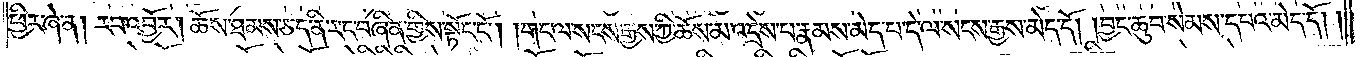ཕྱིར་ཞེ་ན། རབ་འབྱོར། ཆོས་ཐམས་ཅད་ནི་རང་བཞིན་གྱིས་སྟོང་ངོ༌། །གང་ལ་སངས་རྒྱས་ཀྱི་ཆོས་མ་འདྲེས་པ་རྣམས་མེད་པ་དེ་ལ་སངས་རྒྱས་མེད་དོ། །བྱང་ཆུབ་སེམས་དཔའ་མེད་དོ། །
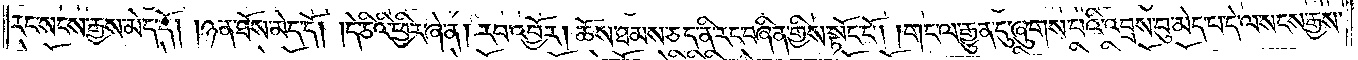རང་སངས་རྒྱས་མེད་དོ། །ཉན་ཐོས་མེད་དོ། །དེ་ཅིའི་ཕྱིར་ཞེ་ན། རབ་འབྱོར། ཆོས་ཐམས་ཅད་ནི་རང་བཞིན་གྱིས་སྟོང་ངོ༌། །གང་ལ་རྒྱུན་དུ་ཞུགས་པའི་འབྲས་བུ་མེད་པ་དེ་ལ་སངས་རྒྱས་
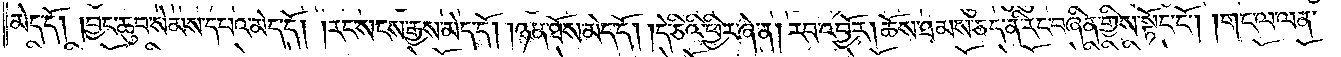མེད་དོ། །བྱང་ཆུབ་སེམས་དཔའ་མེད་དོ། །རང་སངས་རྒྱས་མེད་དོ། །ཉན་ཐོས་མེད་དོ། །དེ་ཅིའི་ཕྱིར་ཞེ་ན། རབ་འབྱོར། ཆོས་ཐམས་ཅད་ནི་རང་བཞིན་གྱིས་སྟོང་ངོ༌། །གང་ལ་ལན་
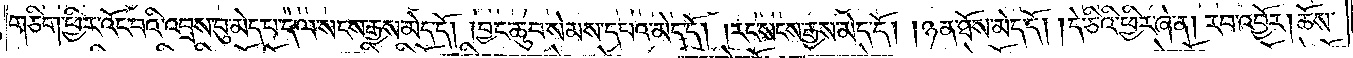གཅིག་ཕྱིར་འོང་བའི་འབྲས་བུ་མེད་པ་དེ་ལ་སངས་རྒྱས་མེད་དོ། །བྱང་ཆུབ་སེམས་དཔའ་མེད་དོ། །རང་སངས་རྒྱས་མེད་དོ། །ཉན་ཐོས་མེད་དོ། །དེ་ཅིའི་ཕྱིར་ཞེ་ན། རབ་འབྱོར། ཆོས་
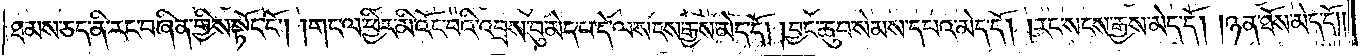ཐམས་ཅད་ནི་རང་བཞིན་གྱིས་སྟོང་ངོ༌། །གང་ལ་ཕྱིར་མི་འོང་བའི་འབྲས་བུ་མེད་པ་དེ་ལ་སངས་རྒྱས་མེད་དོ། །བྱང་ཆུབ་སེམས་དཔའ་མེད་དོ། །རང་སངས་རྒྱས་མེད་དོ། །ཉན་ཐོས་མེད་དོ། །
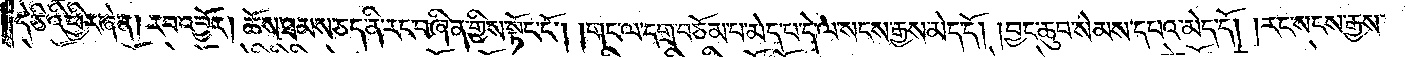དེ་ཅིའི་ཕྱིར་ཞེ་ན། རབ་འབྱོར། ཆོས་ཐམས་ཅད་ནི་རང་བཞིན་གྱིས་སྟོང་ངོ༌། །གང་ལ་དགྲ་བཅོམ་པ་མེད་པ་དེ་ལ་སངས་རྒྱས་མེད་དོ། །བྱང་ཆུབ་སེམས་དཔའ་མེད་དོ། །རང་སངས་རྒྱས་
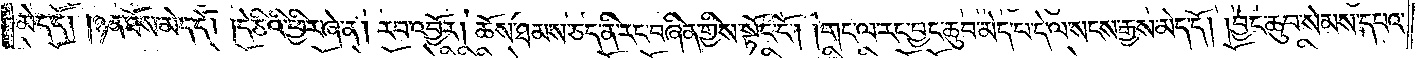མེད་དོ། །ཉན་ཐོས་མེད་དོ། །དེ་ཅིའི་ཕྱིར་ཞེ་ན། རབ་འབྱོར། ཆོས་ཐམས་ཅད་ནི་རང་བཞིན་གྱིས་སྟོང་ངོ༌། །གང་ལ་རང་བྱང་ཆུབ་མེད་པ་དེ་ལ་སངས་རྒྱས་མེད་དོ། །བྱང་ཆུབ་སེམས་དཔའ་
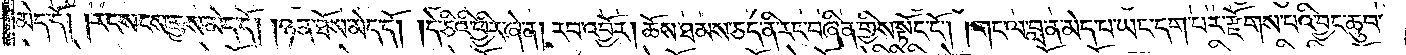མེད་དོ། །རང་སངས་རྒྱས་མེད་དོ། །ཉན་ཐོས་མེད་དོ། །དེ་ཅིའི་ཕྱིར་ཞེ་ན། རབ་འབྱོར། ཆོས་ཐམས་ཅད་ནི་རང་བཞིན་གྱིས་སྟོང་ངོ༌། །གང་ལ་བླ་ན་མེད་པ་ཡང་དག་པར་རྫོགས་པའི་བྱང་ཆུབ་
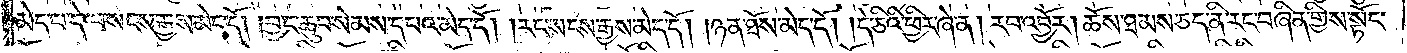མེད་པ་དེ་ལ་སངས་རྒྱས་མེད་དོ། །བྱང་ཆུབ་སེམས་དཔའ་མེད་དོ། །རང་སངས་རྒྱས་མེད་དོ། །ཉན་ཐོས་མེད་དོ། །དེ་ཅིའི་ཕྱིར་ཞེ་ན། རབ་འབྱོར། ཆོས་ཐམས་ཅད་ནི་རང་བཞིན་གྱིས་སྟོང་
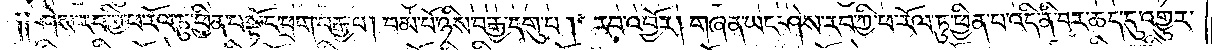༑༑ཤེས་རབ་ཀྱི་ཕ་རོལ་ཏུ་ཕྱིན་པ་སྟོང་ཕྲག་བརྒྱ་པ། །བམ་པོ་ཉིས་བརྒྱ་དགུ་པ། །རབ་འབྱོར། གཞན་ཡང་ཤེས་རབ་ཀྱི་ཕ་རོལ་ཏུ་ཕྱིན་པ་འདི་ནི་བར་ཆད་དུ་འགྱུར་
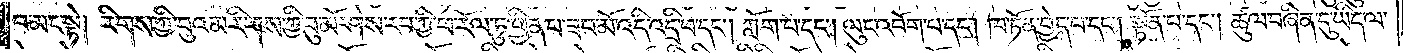བ་མང་སྟེ། རིགས་ཀྱི་བུའམ་རིགས་ཀྱི་བུ་མོ་ཤེས་རབ་ཀྱི་ཕ་རོལ་ཏུ་ཕྱིན་པ་ཟབ་མོ་འདི་འདྲི་བ་དང༌། ཀློག་པ་དང༌། ལུང་འབོག་པ་དང༌། ཁ་ཏོན་བྱེད་པ་དང༌། སྟོན་པ་དང༌། ཚུལ་བཞིན་དུ་ཡིད་ལ་
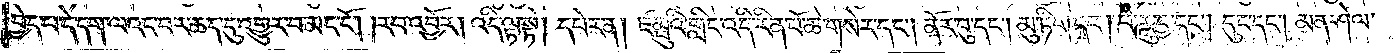བྱེད་པ་དེ་དག་ལའང་བར་ཆད་དུ་འགྱུར་བ་མང་ངོ༌། །རབ་འབྱོར། འདི་ལྟ་སྟེ། དཔེར་ན། ཛམྦུའི་གླིང་འདི་རིན་པོ་ཆེ་གསེར་དང༌། ནོར་བུ་དང༌། མུ་ཏིག་དང༌། བཻ་ཌཱུཪྻ་དང༌། དུང་དང༌། མན་ཤེལ་
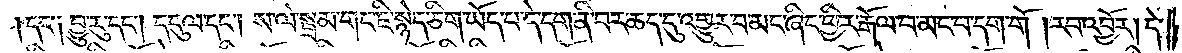དང་༑ བྱུ་རུ་དང༌། དངུལ་དང༌། ས་ལེ་སྦྲམ་གང་ཇི་སྙེད་ཅིག་ཡོད་པ་དེ་དག་ནི་བར་ཆད་དུ་འགྱུར་བ་མང་ཞིང་ཕྱིར་རྒོལ་བ་མང་བ་དག་གོ །རབ་འབྱོར། དེ་
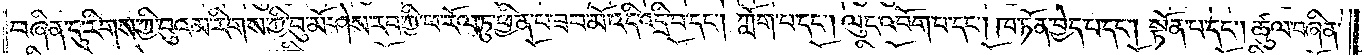བཞིན་དུ་རིགས་ཀྱི་བུའམ་རིགས་ཀྱི་བུ་མོ་ཤེས་རབ་ཀྱི་ཕ་རོལ་ཏུ་ཕྱིན་པ་ཟབ་མོ་འདི་འདྲི་བ་དང༌། ཀློག་པ་དང༌། ལུང་འབོག་པ་དང༌། ཁ་ཏོན་བྱེད་པ་དང༌། སྟོན་པ་དང༌། ཚུལ་བཞིན་
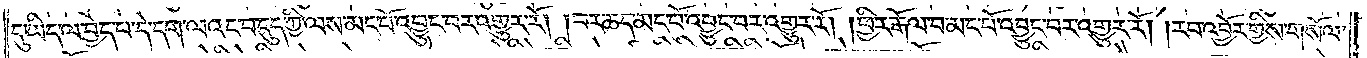དུ་ཡིད་ལ་བྱེད་པ་དེ་དག་ལའང་བདུད་ཀྱི་ལས་མང་པོ་འབྱུང་བར་འགྱུར་རོ། །བར་ཆད་མང་པོ་འབྱུང་བར་འགྱུར་རོ། །ཕྱིར་རྒོལ་བ་མང་པོ་འབྱུང་བར་འགྱུར་རོ། །རབ་འབྱོར་གྱིས་གསོལ་
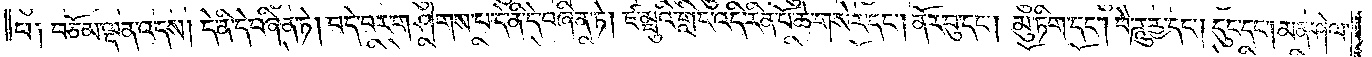པ༑ བཅོམ་ལྡན་འདས། དེ་ནི་དེ་བཞིན་ཏེ། བདེ་བར་གཤེགས་པ་དེ་ནི་དེ་བཞིན་ཏེ། ཛམྦུའི་གླིང་འདི་རིན་པོ་ཆེ་གསེར་དང༌། ནོར་བུ་དང༌། མུ་ཏིག་དང༌། བཻ་ཌཱུཪྻ་དང༌། དུང་དང༌། མན་ཤེལ་
